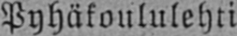Pyhäkoululehti
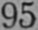95
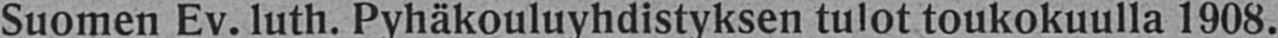Suomen Ev. luth. Pyhäkouluyhdistyksen tulot toukokuulla 1908.
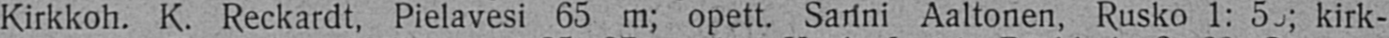Kirkkoh. K. Reckardt, Pielavesi 65 m; opett. Sanni Aaltonen, Rusko 1: 50 kirk-
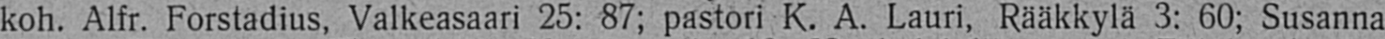koh. Alfr. Forstadius, Valkeasaari 25: 87; pastori K. A. Lauri, Rääkkylä 3: 60; Susanna
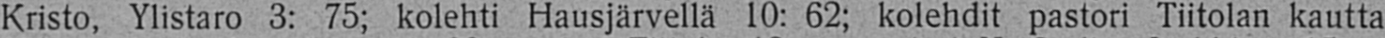Kristo, Ylistaro 3: 75; kolehti Hausjärvellä 10: 62; kolehdit pastori Tiitolan kautta
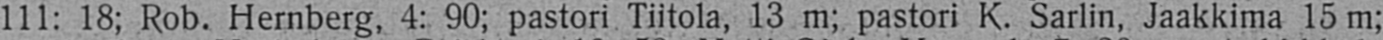111: 18; Rob. Hernberg, 4: 90; pastori Tiitola, 13 m; pastori K. Sarlin, Jaakkima 15 m;
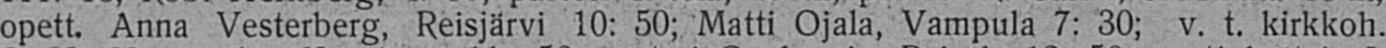opett. Anna Vesterberg, Reisjärvi 10: 50; Matti Ojala, Vampula 7: 30; v. t. kirkkoh.
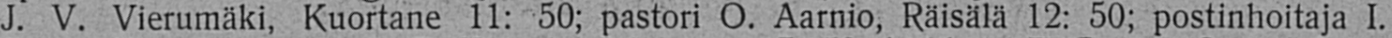J. V. Vierumäki, Kuortane 11: 50; pastori O. Aarnio, Räisälä 12: 50; postinhoitaja I.
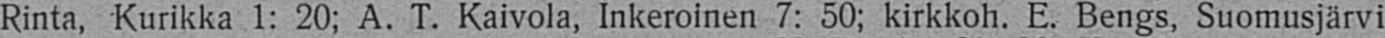Rinta, Kurikka 1: 20; A. T. Kaivola, Inkeroinen 7: 50; kirkkoh, E. Bengs, Suomusjärvi
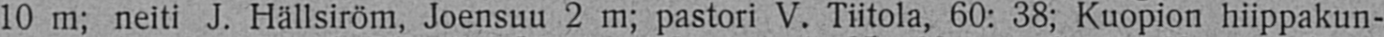10 m; neiti J. Hällsiröm, Joensuu 2 m; pastori V. Tiitola, 60: 38; Kuopion hiippakun-
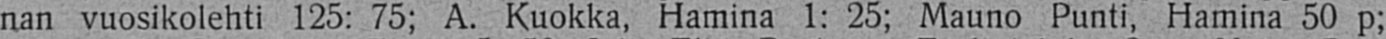nan vuosikolehti 125: 75; A. Kuokka, Hamina 1: 25; Mauno Punti, Hamina 50 p;
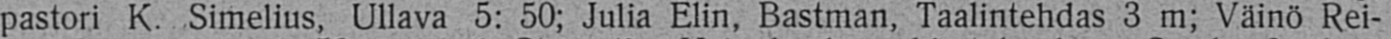pastori K. Simelius, Ullava 5: 50; Julia Elin, Bastman, Taalintehdas 3 m; Väinö Rei-
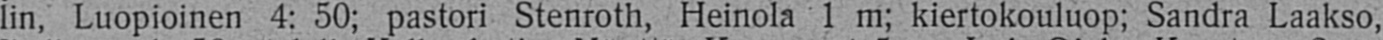lin, Luopioinen 4: 50; pastori Stenroth, Heinola l m; kiertokouluop; Sandra Laakso,
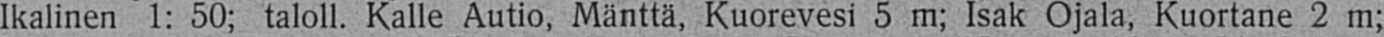Ikalinen 1: 50; taloll, Kalle Autio, Mänttä, Kuorevesi 5 m; Isak Ojala, Kuortane 2 m;
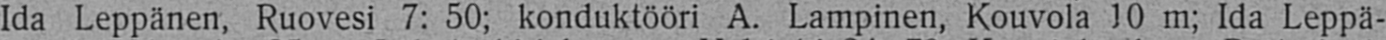Ida Leppänen, Ruovesi 7: 50; konduktööri A. Lampinen, Kouvola 10 m; Ida Leppä-
